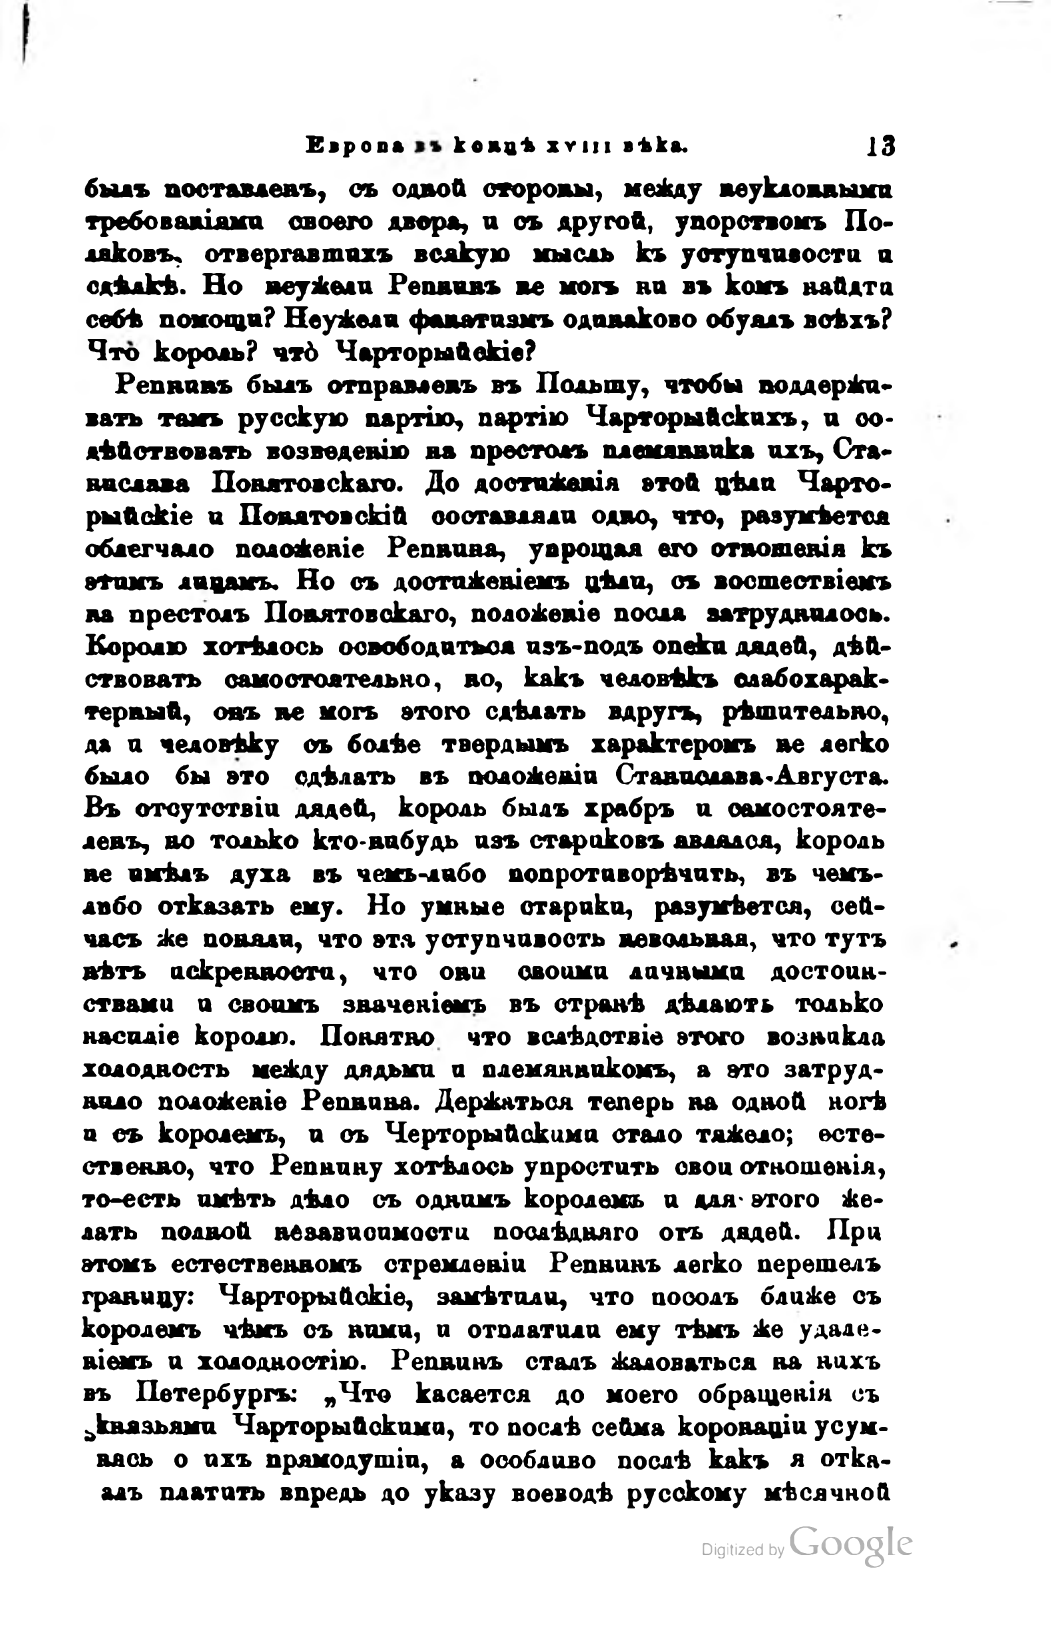Европа въ концѣ XVIII вѣка.                 13
былъ поставленъ, съ одной стороны, между неуклонными требованіями своего двора, и съ другой, упорствомъ Поляковъ, отвергавшихъ всякую мысль къ уступчивости и сдѣлкѣ. Но неужели Репнинъ не могъ ни въ комъ найдти себѣ помощи? Неужели фанатизмъ одинаково обуялъ всѣхъ? Что король? что Чарторыйскіе?
Репнинъ былъ отправленъ въ Польшу, чтобы поддерживатъ тамъ русскую партію, партію Чарторыйскихъ, и содѣйствовать возведенію на престолъ племянника ихъ, Станислава Понятовскаго. До достиженія этой цѣли Чарторыйскіе и Понятовскій составляли одно, что, разумѣется, облегчало положеніе Репнина, упрощая его отношенія къ этимъ лицамъ. Но съ достиженіемъ цѣли, съ восшествіемъ на престолъ Понятовскаго, положеніе посла затруднилось. Королю хотѣлось освободиться изъ-подъ опеки дядей, дѣйствовать самостоятельно, но, какъ человѣкъ слабохарактерный, онъ не могъ этого сдѣлать вдругъ, рѣшительно, да и человѣку съ болѣе твердымъ характеромъ не легко было бы это сдѣлать въ положеніи Станислава-Августа. Въ отсутствіи дядей, король былъ храбръ и самостоятеленъ, но только кто-нибудь изъ стариковъ являлся, король не имѣлъ духа въ чемъ-либо попротиворѣчить, въ чемъ-либо отказать ему. Но умные старики, разумѣется, сейчасъ же поняли, что эта уступчивость невольная, что тутъ нѣтъ искренности, что они своими личными достоинствами и своимъ значеніемъ въ странѣ дѣлаютъ только насиліе королю. Понятно что вслѣдствіе этого возникла холодность между дядьми и племянникомъ, а это затрудняло положеніе Репнина. Дерзкаться теперь на одной ногѣ и съ королемъ, и съ Черторыйскими стадо тяжело; естественно, что Репнину хотѣлось упростить свои отношенія, то-есть имѣть дѣло съ однимъ королемъ и для этого желать полной независимости послѣдняго отъ дядей. При этомъ естественномъ стремленіи Репнинъ легко перешелъ границу: Чарторыйскіе, замѣтили, что посолъ ближе съ королемъ чѣмъ съ ними, и отплатили ему тѣмъ же удаленіемъ и холодностію. Репнинъ сталъ жаловаться на нихъ въ Петербургъ: „Что касается до моего обращенія съ князьями Чарторыйскими, то послѣ сейма коронаціи усумнясь о ихъ прямодушіи, а особливо послѣ какъ я откаалъ платить впредь до указу воеводѣ русскому мѣсячной
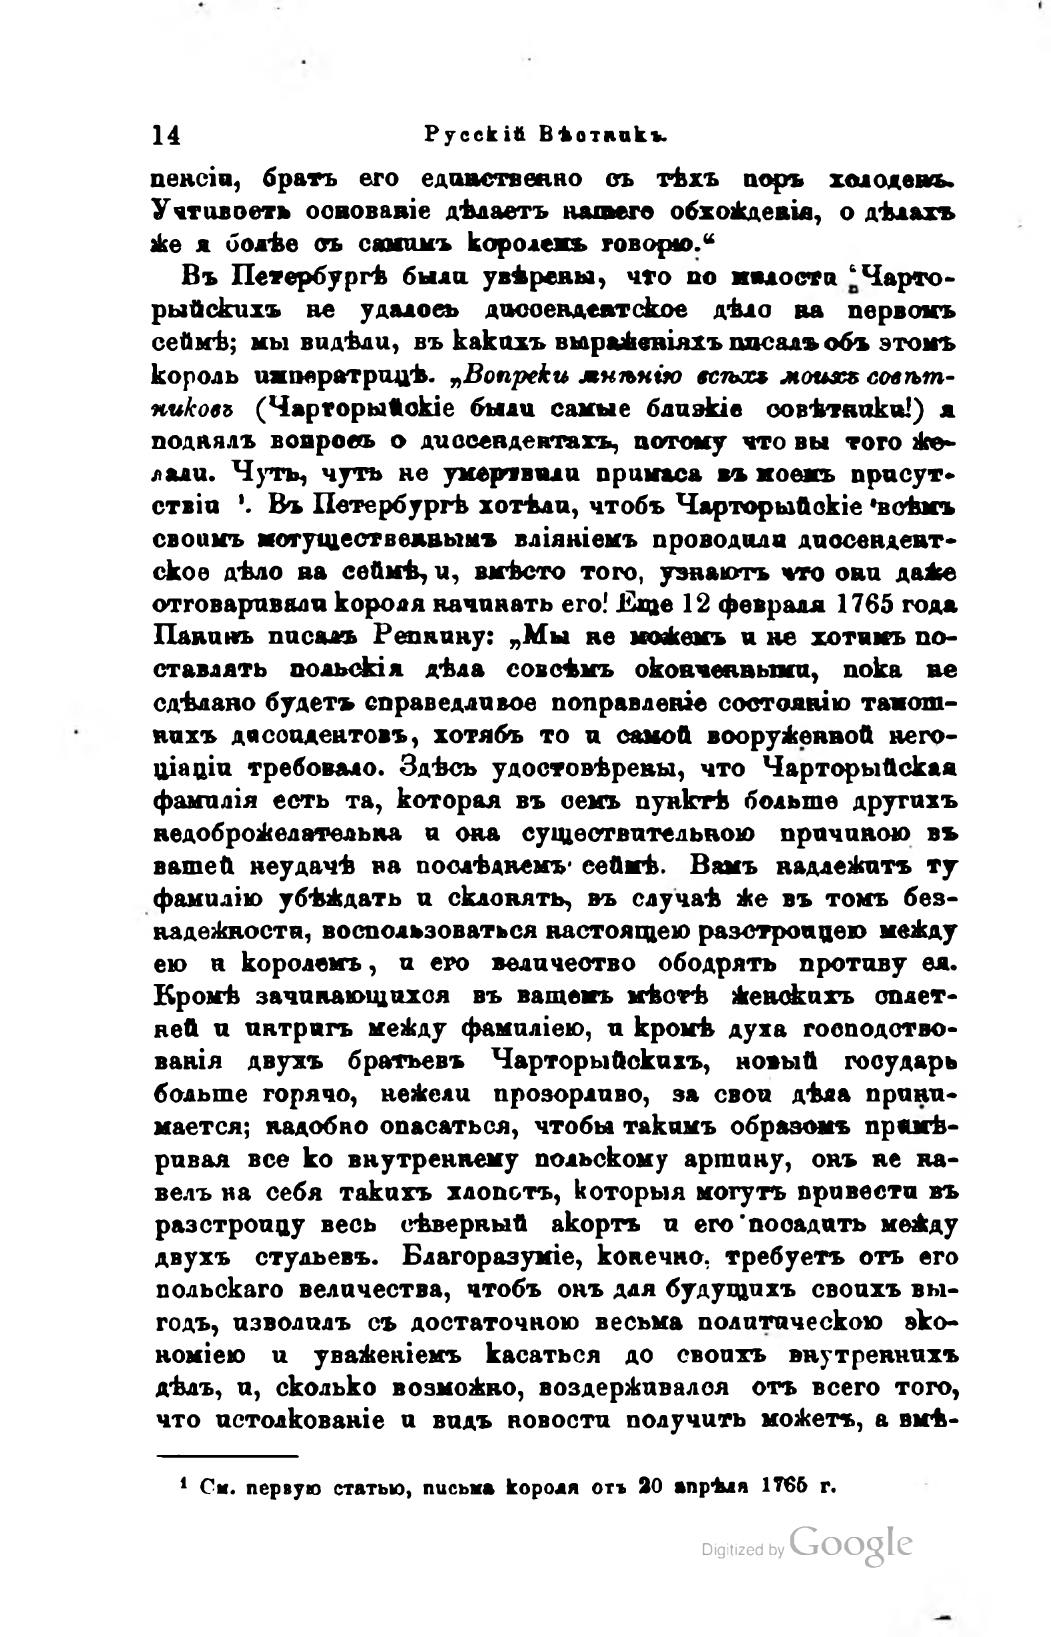14                     Русскій Вѣстникъ.
пенсія, братъ его единственно съ тѣхъ поръ холоденъ. Учтивость основаніе дѣлаетъ нашего обхожденія, о дѣлахъ же я болѣе съ самимъ королемъ говорю.“
Въ Петербургѣ были увѣрены, что по милости Чарторыйскихъ не удалось диссендентское дѣло на первомъ сеймѣ; мы видѣли, въ какихъ выраженіяхъ писалъ объ этомъ король императрицѣ. „Вопреки мнѣнію всѣхъ моихъ совѣтниковъ (Чарторыйскіе были самые близкіе совѣтники!) я поднялъ вопросъ о диссендентахъ, потому что вы того желали. Чуть, чуть не умертвили примаса въ моемъ присутствіи. Въ Петербургѣ хотѣли, чтобъ Чарторыйскіе ‘всѣмъ своимъ могущественнымъ вліяніемъ проводили диссендентское дѣло на сеймѣ, и, вмѣсто того, узнаютъ что они даже отговаривали короля начинать его’. Еще 12 февраля 1765 года Панинъ писалъ Репнину: „Мы не можемъ и не хотимъ поставлять польскія дѣла совсѣмъ оконченными, пока не сдѣлано будетъ справедливое поправленіе состоянію тамошнихъ диссидентовъ, хотябъ то и самой вооруженной негоціаціи требовало. Здѣсь удостовѣрены, что Чарторыйская фамилія есть та, которая въ семъ пунктѣ больше другихъ недоброжелательна и она существительною причиною въ вашей неудачѣ на послѣднемъ сеймѣ. Вамъ надлежитъ ту фамилію убѣждать и склонять, въ случаѣ же въ томъ безнадежности, воспользоваться настоящею разстроицею между ею и королемъ, и его величество ободрять противу ея. Кромѣ зачинающихся въ вашемъ мѣстѣ женскихъ сплетней и интригъ между фамиліею, и кромѣ духа господствованія двухъ братьевъ Чарторыйскихъ, новый государь больше горячо, нежели прозорливо, за свои дѣла принимается; надобно опасаться, чтобы такимъ образомъ примѣривая все ко внутреннему польскому аршину, онъ не навелъ на себя такихъ хлопотъ, которыя могутъ привести въ разстроицу весь сѣверный акортъ и его посадить между двухъ стульевъ. Благоразуміе, конечно, требуетъ отъ его польскаго величества, чтобъ онъ для будущихъ своихъ выгодъ, изволилъ съ достаточною весьма политическою экономіею и уваженіемъ касаться до своихъ внутреннихъ дѣлъ, и, сколько возможно, воздерживался отъ всего того, что истолкованіе и видъ новости получить можетъ, а вмѣ- 
—
1 См. первую статью, письма короля отъ 20 апрѣля 1765 г. 
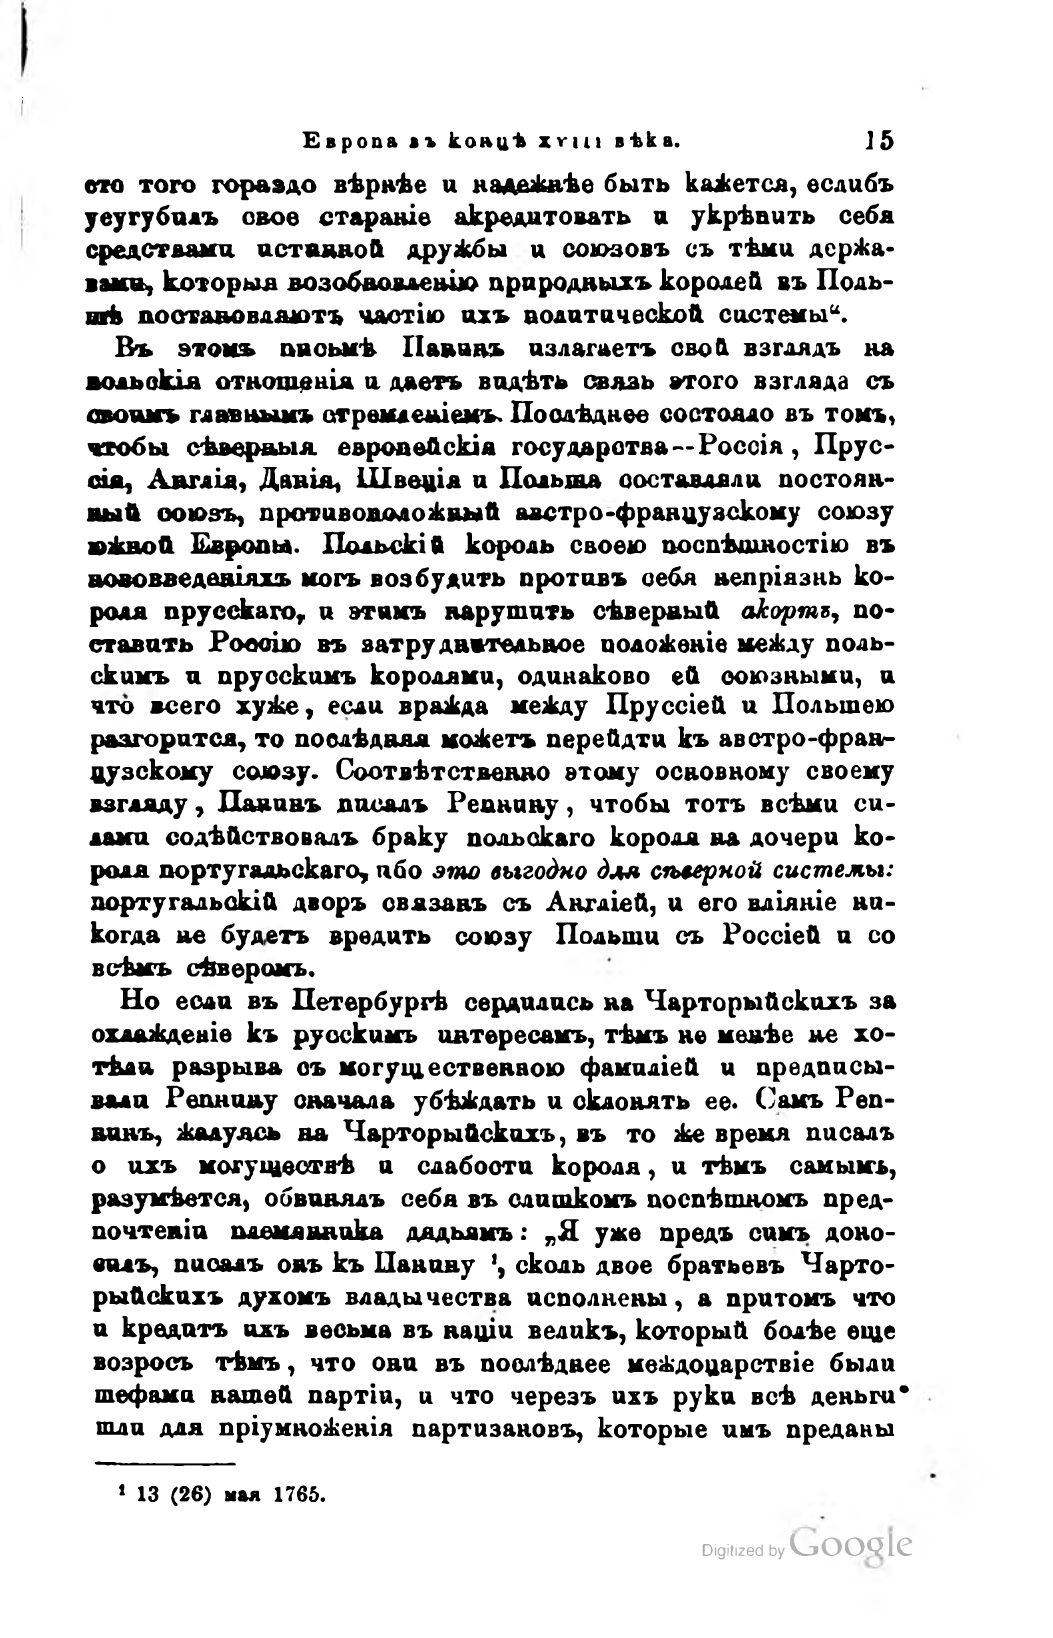Европа въ концѣ XVIII вѣка.                  15
сто того гораздо вѣрнѣе и надежнѣе быть кажется, еслибъ усугубилъ свое стараніе акредитовать и укрѣпить себя средствами истинной дружбы и союзовъ съ тѣми державами, которыя возобновленію природныхъ королей въ Польшѣ постановляютъ частію ихъ политической системы“.
Въ этомъ письмѣ Панинъ излагаетъ свой взглядъ на польскія отношенія и даетъ видѣть связь этого взгляда съ своимъ главнымъ стремленіемъ. Послѣднее состояло въ томъ, чтобы сѣверныя европейскія государства — Россія, Пруссія, Англія, Данія, Швеція и Польша составляли постоянный союзъ, противоположный австро-французскому союзу южной Европы. Польскій король своею поспѣшностію въ нововведеніяхъ могъ возбудить противъ себя непріязнь короля прусскаго, и этимъ нарушить сѣверный акортъ, поставить Россію въ затруднительное положеніе между польскимъ и прусскимъ королями, одинаково ей союзными, и что всего хуже, если вражда между Пруссіей и Польшею разгорится, то послѣдняя можетъ перейдти къ австро-французскому союзу. Соотвѣтственно этому основному своему взгляду, Панинъ писалъ Репнину, чтобы тотъ всѣми силами содѣйствовалъ браку польскаго короля на дочери короля португальскаго, ибо это выгодно для сѣверной системы: португальскій дворъ связанъ съ Англіей, и его вліяніе никогда не будетъ вредить союзу Польши съ Россіей и со всѣмъ сѣверомъ.
Но если въ Петербургѣ сердились на Чарторыйскихъ за охлажденіе къ русскимъ интересамъ, тѣмъ не менѣе не хотѣла разрыва съ могущественною фамиліей и предписывали Репнину сначала убѣждать и склонять ее. Самъ Репнинъ, жалуясь на Чарторыйскихъ, въ то же время писалъ о ихъ могуществѣ и слабости короля, и тѣмъ самымъ, разумѣется, обвинялъ себя въ слишкомъ поспѣшномъ предпочтеніи племянника дядьямъ: „Я уже предъ симъ доносилъ, писалъ онъ къ Панину, сколь двое братьевъ Чарторыйскихъ духомъ владычества исполнены, а притомъ что и кредитъ ихъ весьма въ націи великъ, который болѣе еще возросъ тѣмъ, что они въ послѣднее междоцарствіе были шефами нашей партіи, и что черезъ ихъ руки всѣ деньги шли для пріумноженія партизановъ, которые имъ преданы
—
1 13 (26) мая 1765.
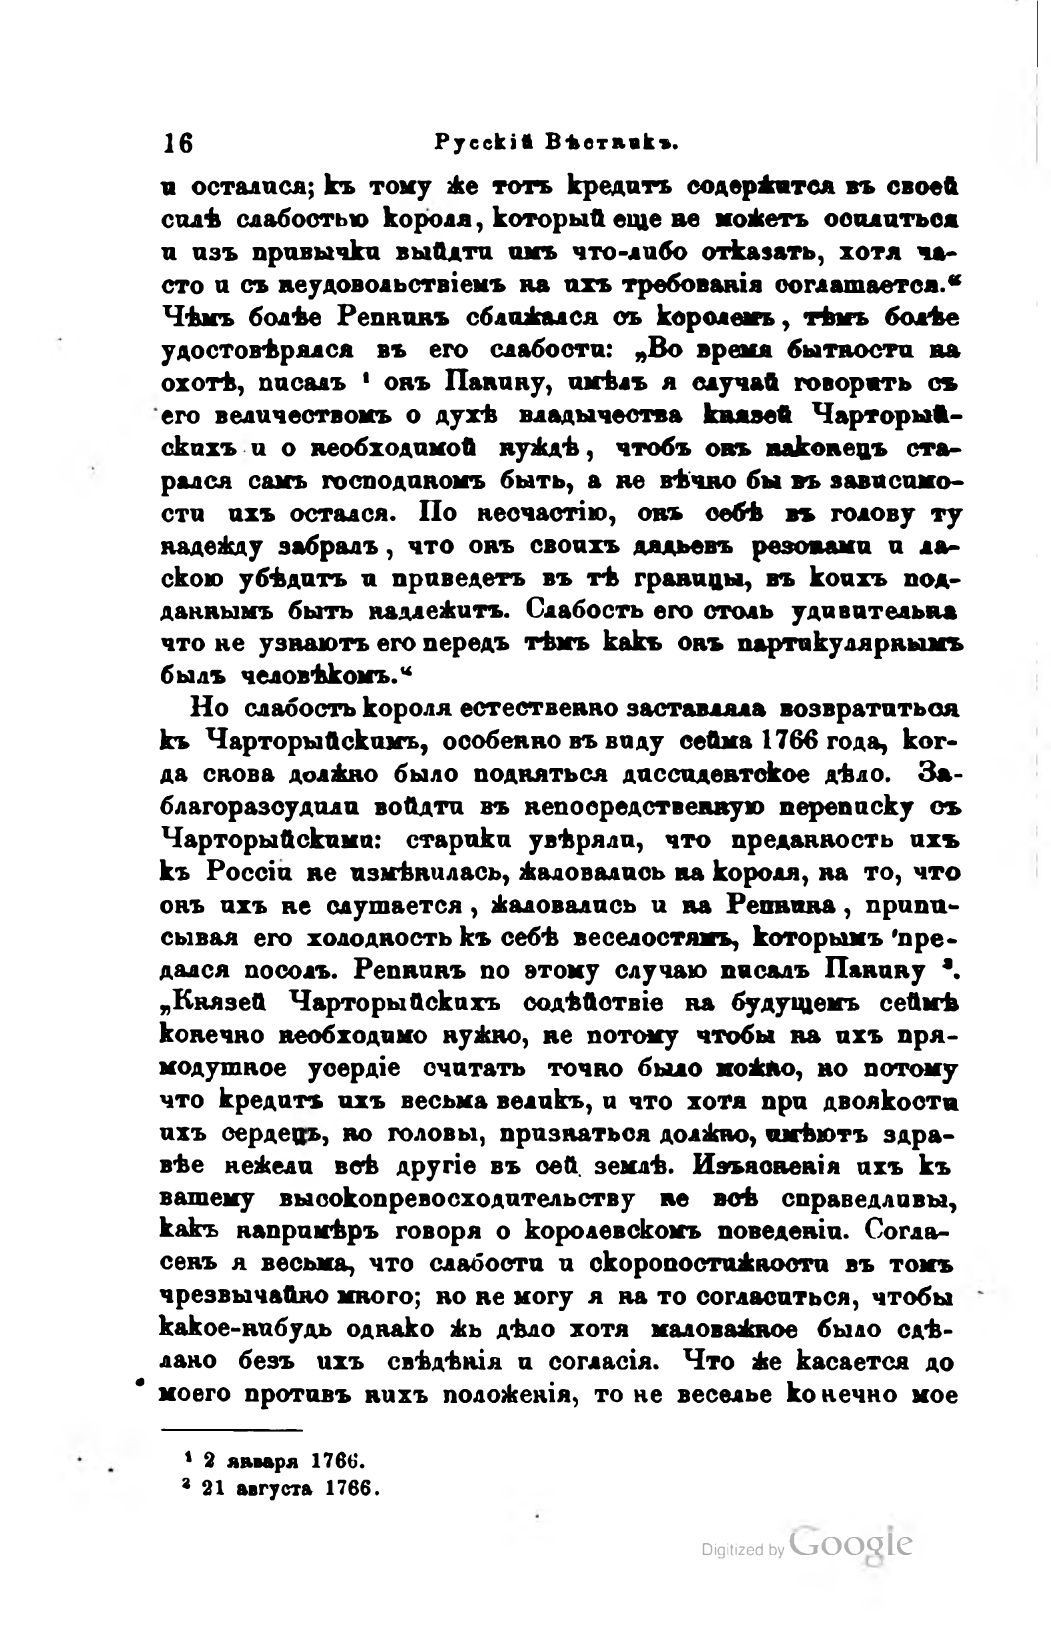16                   Русскій Вѣстникъ.
и осталися; къ тому же тотъ кредитъ содержится въ своей силѣ слабостью короля, который еще не можетъ осилиться и изъ привычки выйдти имъ что-либо отказать, хотя часто и съ неудовольствіемъ на ихъ требованія соглашается.“ Чѣмъ болѣе Репнинъ сближался съ королемъ, тѣмъ болѣе удостовѣрялся въ его слабости: „Во время бытности на охотѣ, писалъ онъ Панину, имѣлъ я случай говорить съ его величествомъ о духѣ владычества князей Чарторыйскихъ и о необходимой нуждѣ, чтобъ онъ наконецъ старался самъ господиномъ быть, а не вѣчно бы въ зависимости ихъ остался. По несчастію, онъ себѣ въ голову ту надежду забралъ, что онъ своихъ дядьевъ резонами и ласкою убѣдитъ и приведетъ въ тѣ границы, въ коихъ подданнымъ быть надлежитъ. Слабость его столь удивительна что не узнаютъ его передъ тѣмъ какъ онъ партикулярнымъ былъ человѣкомъ.“
Но слабость короля естественно заставляла возвратиться къ Чарторыйскимъ, особенно въ виду сейма 1766 года, когда снова должно было подняться диссидентское дѣло. Заблагоразсудили войдти въ непосредственную переписку съ Чарторыйскими: старики увѣряли, что преданность ихъ къ Россіи не измѣнилась, Жаловались на короля, на то, что онъ ихъ не слушается, жаловались и на Репнина, приписывая его холодность къ себѣ веселостямъ, которымъ предался посолъ. Репнинъ по этому случаю писалъ Панину.
„Князей Чарторыйскихъ содѣйствіе на будущемъ сеймѣ конечно необходимо нужно, не потому чтобы на ихъ прямодушное усердіе считать точно было можно, но потому что кредитъ ихъ весьма великъ, и что хотя при двоякости ихъ сердецъ, но головы, признаться должно, имѣютъ здравѣе нежели всѣ другіе въ сей землѣ. Изъясненія ихъ къ вашему высокопревосходительству не всѣ справедливы, какъ напримѣръ говоря о королевскомъ поведеніи. Согласенъ я весьма, что слабости и скоропостижности въ томъ чрезвычайно много; но не могу я на то согласиться, чтобы какое-нибудь однако жъ дѣло хотя маловажное было сдѣлано безъ ихъ свѣдѣнія и согласія. Что же касается до моего противъ нихъ положенія, то не веселье конечно мое
—
1 2 января 1766.
2 21 августа 1766.